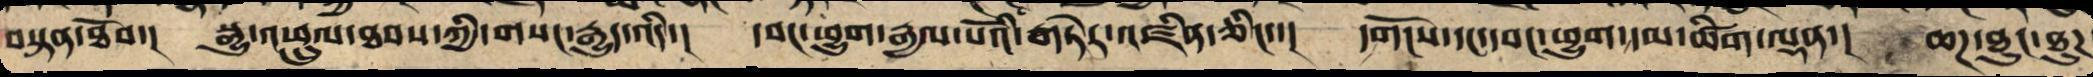བསྟན་ཐོབ་། སྒྱུ་འཕྲུལ་ཐབས་ཀྱི་གསང་རྒྱུད་འདི་། དབང་ཕྱུག་རྒྱལ་པོའི་གཏེར་འཛིན་ཅིང་་། དགོངས་དང་དབང་ཕྱུག་དམ་ཚིག་ལྡན་། ཆཌ་ཐུང་ཐུཌ
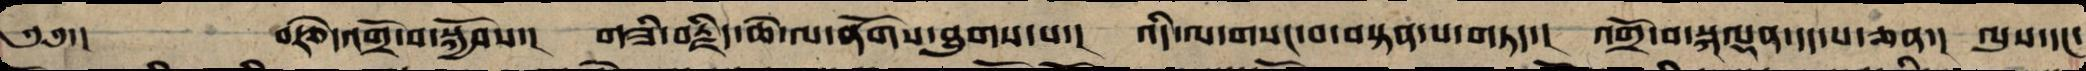༄༅་། བརྩེ་འགྲོ་བ་སྐྱོབས་། གཟི་བརྗིད་ཆེ་ལ་ནོགས་ཐུབ་པ་། འདི་ལ་གསང་བ་བསྟན་པ་གཏད་། འགྲོ་བ་སྐལྡན་དད་པ་ཅན་། ལུས་དང་
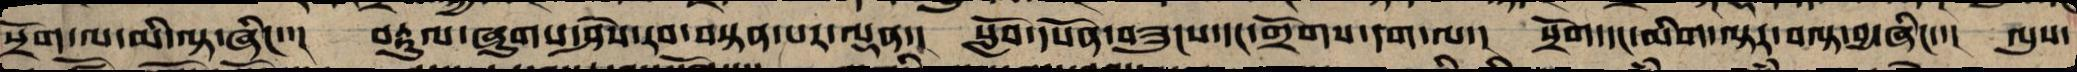སྲོག་ལ་མི་ལྟ་ཞིང་་། བརྟུལ་ཞུགས་ཤེས་རབ་བསྟན་པར་ལྡན་། སློབ་དཔོན་བཟུང་དང་གྲོགས་དག་ལ་། སྲོག་དང་མིག་ལྟར་བལྟ་བྱ་ཞིང་་། ལུས་
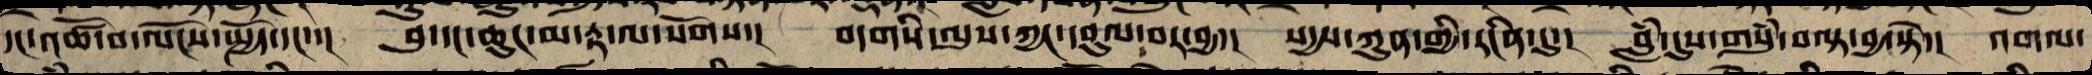དང་འཚོ་བ་ལོངས་སྤྱོད་དང་་། བུ་དང་ཆུང་མ་རྟ་ལ་སོགས་། བདགིས་ལུས་ཀྱང་དབུལ་བར་བྱ་། སདྱས་ཀུན་གྱི་རང་བཞིན་དུ་། བླཾ་དུས་གསུཾ་བལྟ་བྱ་སྟེ་། འགལ་
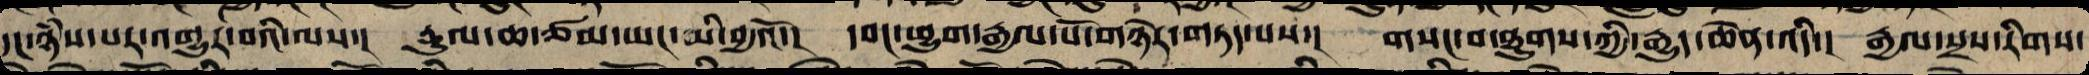དང་ཉཾས་པར་འགྱུར་བའི་ལས་། རྡུལ་ཆ་ཙམ་ཡང་མི་བྱའོ་། དབང་ཕྱུག་རྒྱལ་པོས་གཉེར་གཏད་པའི་། གསང་བ་ཐུགས་ཀྱི་རྒྱུད་ཆེན་འདི་། རྒྱལ་སྲས་རིགས་
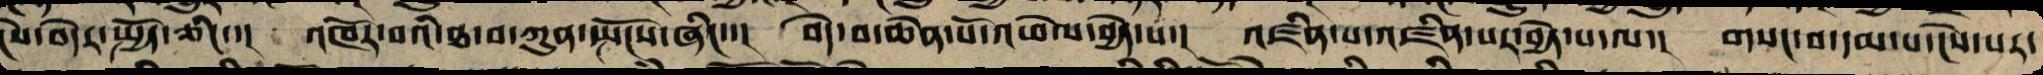ངེས་བདེར་སྤྱོད་ཅིང་་། འཁོར་བའི་ཐ་བ་ཀུན་སྤངས་ཤིང་་། བདེ་བ་ཆེན་པོ་འཕེལ་བྱེད་པ་། འཛིན་པ་འཛིན་པར་བྱེད་པ་ལ་། གསང་བ་དམ་པར་ངེས་པར་
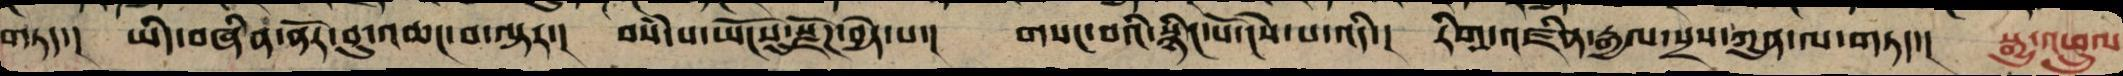གཏད་། ཡིད་བཞིན་ནོར་བུ་འཆང་བ་ལྟར་། བསཾ་པ་ཡོངསུ་སྫོགས་བྱེད་པ་། གསང་བའི་སྙིང་པོ་ངེས་པ་འདི་། རིག་འཛིན་རྒྱལ་སྲས་ཀུན་ལ་གཏད་། སྒྱུ་འཕྲུལ
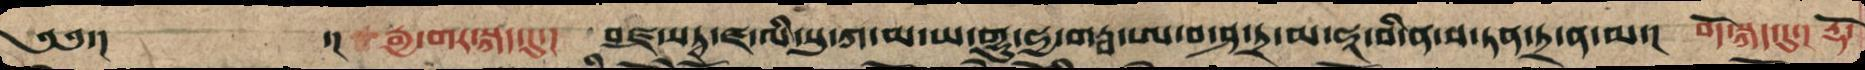༄༅་། ་།རྒྱ་གར་སྐད་དུ་། བཛྲ་སཏྭ་ཛ་ལི་སུ་ཀ་མ་ཡ་གྷུ་ཧྱ་གརྦ་ཨ་བ་ཤ་ཏྲ་མ་ཧཱ་བི་ན་ས་ཏན་ཏྲ་ན་མ་། བོད་སྐད་དུ། རྡོ་
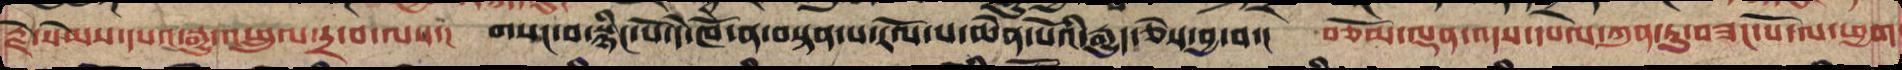རྗེ་སེམས་དཔའ་སྒྱུ་འཕྲུལ་དྲ་བ་ལས་། གསང་བའི་སྙིང་པོ་དེ་ཁོ་ན་བསྟན་པ་རོལ་པ་ཆེན་པོའི་རྒྱུད་ཅེས་བྱ་བ་། བཅོམ་ལྡན་འདས་དཔལ་ཀུན་ཏུ་བཟང་པོ་ལ་ཕྱག
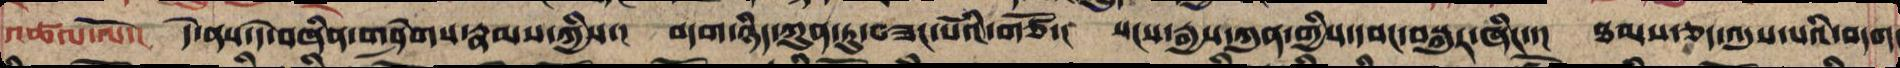འཚལ་ལོ་། དེ་ནས་དེ་བཞིན་གཤེགས་རྣམས་ཀྱི་། བདག་ཉིད་ཀུན་ཏུ་བཟང་པོའི་གཙོ་། སངས་རྒྱས་ཀུན་གྱིས་དབང་བསྐུར་ཞིང་་། ཐ᪱᫥་ཅད་འདུས་པའི་བདག
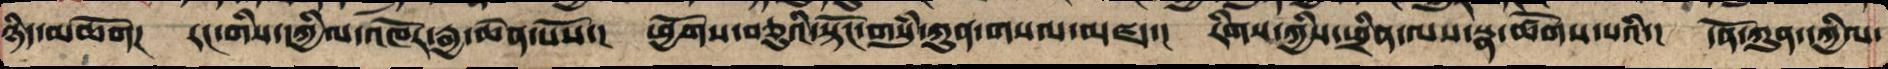ཉིད་མཆོག། རང་གི་དཀྱིལ་འཁོར་རྒྱ་ཆེན་པོས་། ཕྱོགས་བཅུའི་སྟོང་གསུཾ་ཀུན་གསལ་མཛད་། རིགས་ཀྱི་ཕྲིན་ལས་སྣ་ཚོགས་པའི་། དོན་ཀུན་དཀྱིལ་
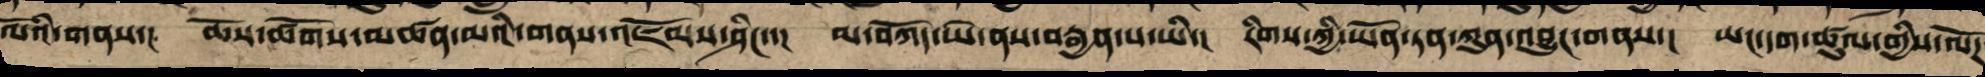ལོའི་གནས་། ཆོས་ཚོགས་མཚན་མའི་གནས་འཇོམས་ཤིང་་། མ་བཀོད་ཡེ་ནས་བརྒྱན་པ་ཡི་། རིགས་ཀྱི་ཡོན་ཏན་ཀུན་འབྱུང་གནས་། ཡང་དག་ཚུལ་གྱིས་ལོཌ
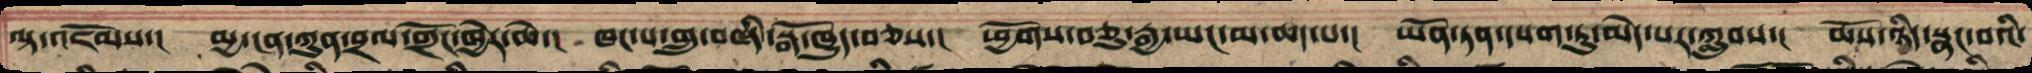ལྟ་འཇོམས་། མྱ་ངན་ཀུན་བྲལ་གྲོང་ཁྱེར་ཆེ་། ཁང་པ་གྲུ་བཞི་སྒོ་ཁྱུད་བཅས་། ཕྱོགས་བཅུ་རྒྱ་ཡང་མ་ཆད་པ་། ཡོན་ཏན་དཔག་ཏུ་མེད་པར་ཀླུབས་། ཆོས་ཉིད་སྣང་བའི་
